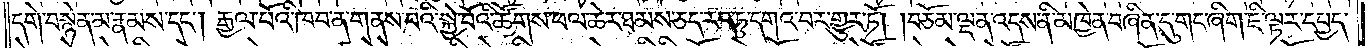དགེ་བསྙེན་མ་རྣམས་དང༌། རྒྱལ་པོའི་ཁབ་ན་གནས་པའི་སྐྱེ་བོའི་ཚོགས་ཕལ་ཆེར་ཐམས་ཅད་རབ་ཏུ་དགའ་བར་གྱུར་ཏོ། །བཅོམ་ལྡན་འདས་ནི་མཁྱེན་བཞིན་དུ་གང་ཞིག་ཇི་ལྟར་དཔྱད་
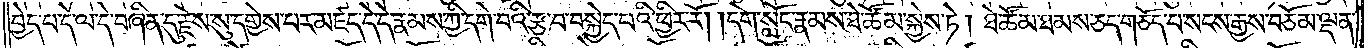བྱེད་པ་དེ་ལ་དེ་བཞིན་དུ་རྗེས་སུ་དགྱེས་པར་མཛད་དེ་དེ་རྣམས་ཀྱི་དགེ་བའི་རྩ་བ་བསྐྱེད་པའི་ཕྱིར་རོ། །དགེ་སློང་རྣམས་ཐེ་ཚོམ་སྐྱེས་ཏེ། ཐེ་ཚོམ་ཐམས་ཅད་གཅོད་པ་སངས་རྒྱས་བཅོམ་ལྡན་
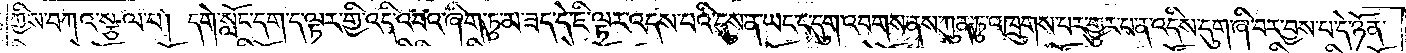ཀྱིས་བཀའ་སྩལ་པ། དགེ་སློང་དག་ད་ལྟར་གྱི་འདི་འབའ་ཞིག་ཏུ་མ་ཟད་དེ་ཇི་ལྟར་འདས་པའི་དུས་ན་ཡང་ང་དུག་འབགས་ནས་ཀུན་ཏུ་འཁྲུགས་པར་གྱུར་པ་ན་འདིས་དུག་ཞི་བར་བྱས་པ་དེ་ཉོན་
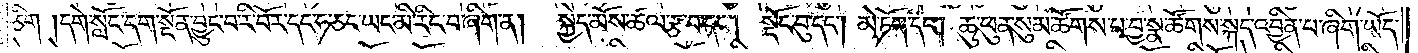ཅིག །དགེ་སློང་དག་སྔོན་བྱུང་བ་རི་བོར་དང་ཧ་ཅང་ཡང་མི་རིང་བ་ཞིག་ན།  སྐྱེད་མོས་ཚལ་རྩ་བ་དང༌། སྡོང་བུ་དང༌། མེ་ཏོག་དང༌། ཆུ་ཕུན་སུམ་ཚོགས་པ་བྱ་སྣ་ཚོགས་སྐད་འབྱིན་པ་ཞིག་ཡོད་
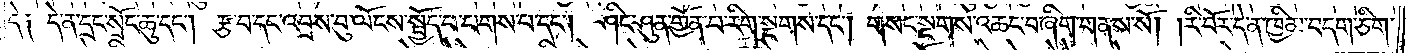དེ༑ དེ་ན་དྲང་སྲོང་ཆུ་དང༌། རྩ་བ་དང་འབྲས་བུ་ལོངས་སྤྱོད་པ་པགས་པ་དང༌། ཤིང་ཤུན་གྱོན་པ་རིག་སྔགས་དང༌། གསང་སྔགས་འཆང་བ་ཞིག་གནས་སོ། །རི་བོར་དེ་ན་ཁྱིམ་བདག་ཅིག་
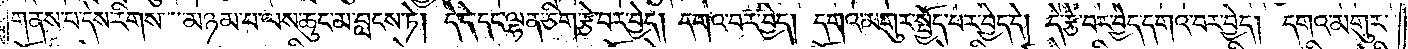གནས་པ་དེས་རིགས་མཉམ་པ་ལས་ཆུང་མ་བླངས་ཏེ། དེ་དེ་དང་ལྷན་ཅིག་རྩེ་བར་བྱེད། དགའ་བར་བྱེད། དགའ་མགུར་སྤྱོད་པར་བྱེད་དེ། དེ་རྩེ་བར་བྱེད་དགའ་བར་བྱེད། དགའ་མགུར་
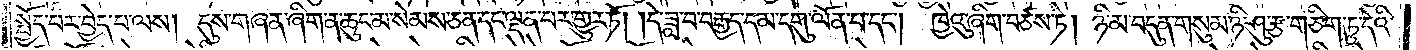སྤྱོད་པར་བྱེད་པ་ལས། དུས་གཞན་ཞིག་ན་ཆུང་མ་སེམས་ཅན་དང་ལྡན་པར་གྱུར་ཏོ། །དེ་ཟླ་བ་བརྒྱད་དམ་དགུ་ལོན་པ་དང༌། ཁྱེའུ་ཞིག་བཙས་ཏེ། ཉི་མ་བདུན་གསུམ་ཉི་ཤུ་རྩ་གཅིག་ཏུ་དེའི་
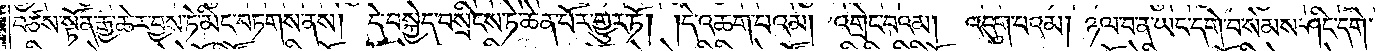བཙས་སྟོན་རྒྱ་ཆེར་བྱས་ཏེ་མིང་བཏགས་ནས། དེ་བསྐྱེད་བསྲིངས་ཏེ་ཆེན་པོར་གྱུར་ཏོ། །དེ་འཆག་པའམ། འགྲེང་བའམ། འདུག་པའམ། ཉལ་བ་ན་ཡང་དགེ་བ་སེམས་ཤིང་དགེ་
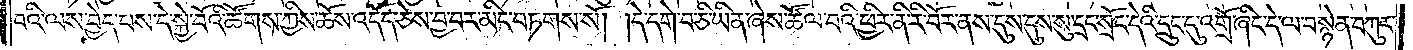བའི་ལས་བྱེད་པས་དེ་སྐྱེ་བོའི་ཚོགས་ཀྱིས་ཆོས་འདོད་ཅེས་བྱ་བར་མིང་བཏགས་སོ། །དེ་དགེ་བ་ཅི་ཡིན་ཞེས་ཚོལ་བའི་ཕྱིར་ནི་རི་བོར་ནས་དུས་དུས་སུ་དྲང་སྲོང་དེའི་དྲུང་དུ་འགྲོ་ཞིང་དེ་ལ་བསྙེན་བཀུར་
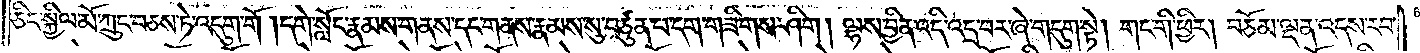ཅིང་སྐྱིལ་མོ་ཀྲུང་བཅས་ཏེ་འདུག་གོ །དགེ་སློང་རྣམས་གནས་དང་གནས་རྣམས་སུ་བཙུན་པ་དག་གཟིགས་ཤིག །ལྷས་བྱིན་འདི་འདྲ་བར་ཞེ་གདུག་སྟེ། གང་གི་ཕྱིར། བཅོམ་ལྡན་འདས་རབ་
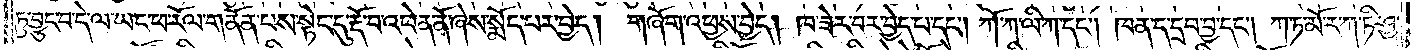ཏུ་བྱུང་བ་དེ་ལ་ཡང་ཕ་རོལ་གནོན་པས་སྟེང་དུ་རྡོ་བ་འཕེན་ནོ་ཞེས་སྨོད་པར་བྱེད། གཞོག་འཕྱས་བྱེད། ཁ་ཟེར་བར་བྱེད་པ་དང༌། ཀོ་ཀ་ལི་ཀ་དང༌། ཁན་ད་དྲབ་བྱ་དང༌། ཀ་ཏ་མོ་ར་ཀ་ཏི་ཤྱ་
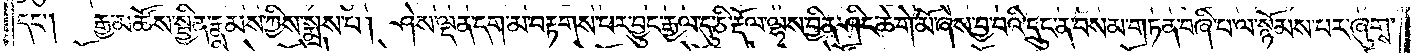དང༌།  རྒྱ་མཚོས་སྦྱིན་རྣམས་ཀྱིས་སྨྲས་པ། ཤེས་ལྡན་དག་མ་བརྟགས་པར་བྱུང་རྒྱལ་དུ་ཅི་རྡོལ་ལྷས་བྱིན་ཤིང་ཆེ་གེ་མོ་ཞེས་བྱ་བའི་དྲུང་ན་བསམ་གཏན་བཞི་པ་ལ་སྙོམས་པར་ཞུགས་
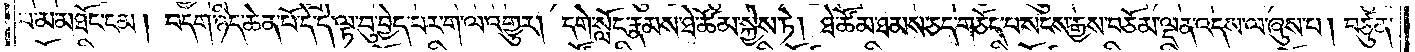པ་མ་མཐོང་ངམ། བདག་ཉིད་ཆེན་པོ་དེ་དེ་ལྟ་བུ་བྱེད་པར་ག་ལ་འགྱུར། དགེ་སློང་རྣམས་ཐེ་ཚོམ་སྐྱེས་ཏེ། ཐེ་ཚོམ་ཐམས་ཅད་གཅོད་པ་སངས་རྒྱས་བཅོམ་ལྡན་འདས་ལ་ཞུས་པ། བཙུན་
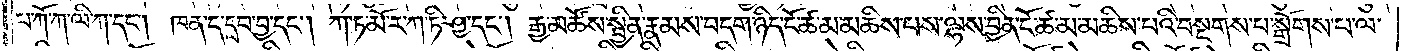པ་ཀོ་ཀ་ལི་ཀ་དང༌། ཁན་ད་དྲབ་བྱ་དང༌། ཀ་ཏ་མོ་ར་ཀ་ཏི་ཤྱ་དང༌། རྒྱ་མཚོས་སྦྱིན་རྣམས་བདག་ཉིད་ངོ་ཚ་མ་མཆིས་པས་ལྷས་བྱིན་ངོ་ཚ་མ་མཆིས་པའི་བསྔགས་པ་སྒྲོགས་པ་ལ་
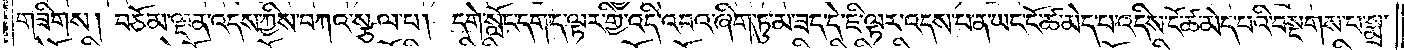གཟིགས། བཅོམ་ལྡན་འདས་ཀྱིས་བཀའ་སྩལ་པ། དགེ་སློང་དག་ད་ལྟར་གྱི་འདི་འབའ་ཞིག་ཏུ་མ་ཟད་དེ་ཇི་ལྟར་འདས་པ་ན་ཡང་ངོ་ཚ་མེད་པ་འདིས་ངོ་ཚ་མེད་པའི་བསྔགས་པ་སྨྲ་
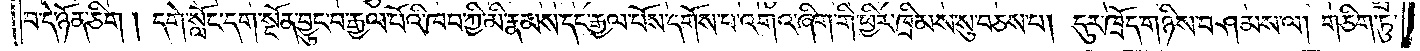བ་དེ་ཉོན་ཅིག །དགེ་སློང་དག་སྔོན་བྱུང་བ་རྒྱལ་པོའི་ཁབ་ཀྱི་མི་རྣམས་དང་རྒྱལ་པོས་དགོས་པ་འགའ་ཞིག་གི་ཕྱིར་ཁྲིམས་སུ་བཅས་པ། དུར་ཁྲོད་གཉིས་བཤམས་ལ། གཅིག་ཏུ་
